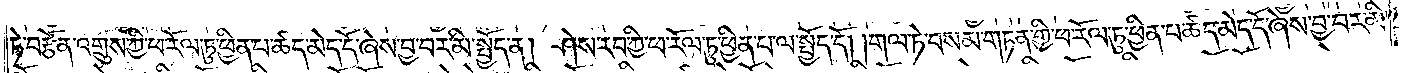ཏེ་བརྩོན་འགྲུས་ཀྱི་ཕ་རོལ་ཏུ་ཕྱིན་པ་ཚད་མེད་དོ་ཞེས་བྱ་བར་མི་སྤྱོད་ན། ཤེས་རབ་ཀྱི་ཕ་རོལ་ཏུ་ཕྱིན་པ་ལ་སྤྱོད་དོ། །གལ་ཏེ་བསམ་གཏན་གྱི་ཕ་རོལ་ཏུ་ཕྱིན་པ་ཚད་མེད་དོ་ཞེས་བྱ་བར་མི་
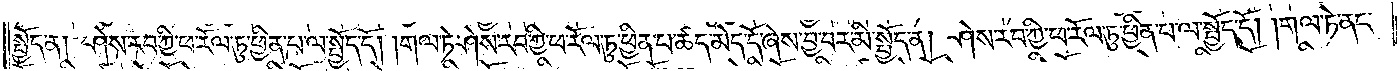སྤྱོད་ན། ཤེས་རབ་ཀྱི་ཕ་རོལ་ཏུ་ཕྱིན་པ་ལ་སྤྱོད་དོ། །གལ་ཏེ་ཤེས་རབ་ཀྱི་ཕ་རོལ་ཏུ་ཕྱིན་པ་ཚད་མེད་དོ་ཞེས་བྱ་བར་མི་སྤྱོད་ན། ཤེས་རབ་ཀྱི་ཕ་རོལ་ཏུ་ཕྱིན་པ་ལ་སྤྱོད་དོ། །གལ་ཏེ་ནང་
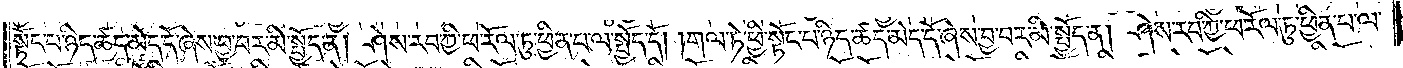སྟོང་པ་ཉིད་ཚད་མེད་དོ་ཞེས་བྱ་བར་མི་སྤྱོད་ན། ཤེས་རབ་ཀྱི་ཕ་རོལ་ཏུ་ཕྱིན་པ་ལ་སྤྱོད་དོ། །གལ་ཏེ་ཕྱི་སྟོང་པ་ཉིད་ཚད་མེད་དོ་ཞེས་བྱ་བར་མི་སྤྱོད་ན། ཤེས་རབ་ཀྱི་ཕ་རོལ་ཏུ་ཕྱིན་པ་ལ་
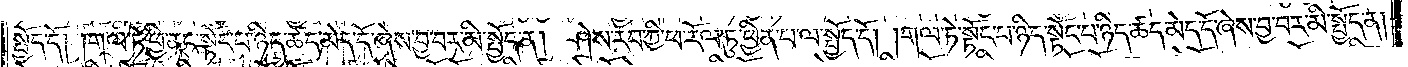སྤྱོད་དོ། །གལ་ཏེ་ཕྱི་ནང་སྟོང་པ་ཉིད་ཚད་མེད་དོ་ཞེས་བྱ་བར་མི་སྤྱོད་ན། ཤེས་རབ་ཀྱི་ཕ་རོལ་ཏུ་ཕྱིན་པ་ལ་སྤྱོད་དོ། །གལ་ཏེ་སྟོང་པ་ཉིད་སྟོང་པ་ཉིད་ཚད་མེད་དོ་ཞེས་བྱ་བར་མི་སྤྱོད་ན།
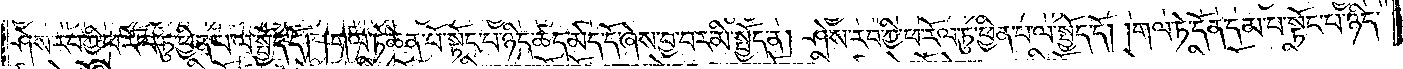ཤེས་རབ་ཀྱི་ཕ་རོལ་ཏུ་ཕྱིན་པ་ལ་སྤྱོད་དོ། །གལ་ཏེ་ཆེན་པོ་སྟོང་པ་ཉིད་ཚད་མེད་དོ་ཞེས་བྱ་བར་མི་སྤྱོད་ན། ཤེས་རབ་ཀྱི་ཕ་རོལ་ཏུ་ཕྱིན་པ་ལ་སྤྱོད་དོ། །གལ་ཏེ་དོན་དམ་པ་སྟོང་པ་ཉིད་
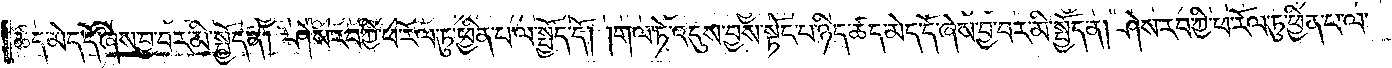ཚད་མེད་དོ་ཞེས་བྱ་བར་མི་སྤྱོད་ན། ཤེས་རབ་ཀྱི་ཕ་རོལ་ཏུ་ཕྱིན་པ་ལ་སྤྱོད་དོ། །གལ་ཏེ་འདུས་བྱས་སྟོང་པ་ཉིད་ཚད་མེད་དོ་ཞེས་བྱ་བར་མི་སྤྱོད་ན། ཤེས་རབ་ཀྱི་ཕ་རོལ་ཏུ་ཕྱིན་པ་ལ་
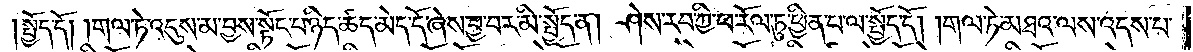སྤྱོད་དོ། །གལ་ཏེ་འདུས་མ་བྱས་སྟོང་པ་ཉིད་ཚད་མེད་དོ་ཞེས་བྱ་བར་མི་སྤྱོད་ན། ཤེས་རབ་ཀྱི་ཕ་རོལ་ཏུ་ཕྱིན་པ་ལ་སྤྱོད་དོ། །གལ་ཏེ་མཐའ་ལས་འདས་པ་
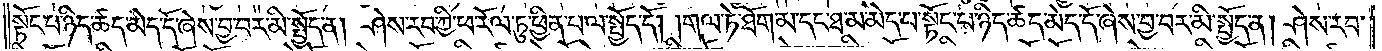སྟོང་པ་ཉིད་ཚད་མེད་དོ་ཞེས་བྱ་བར་མི་སྤྱོད་ན། ཤེས་རབ་ཀྱི་ཕ་རོལ་ཏུ་ཕྱིན་པ་ལ་སྤྱོད་དོ། །གལ་ཏེ་ཐོག་མ་དང་ཐ་མ་མེད་པ་སྟོང་པ་ཉིད་ཚད་མེད་དོ་ཞེས་བྱ་བར་མི་སྤྱོད་ན། ཤེས་རབ་
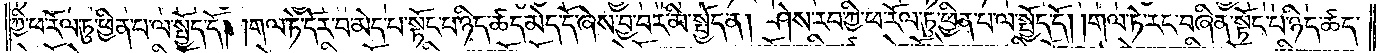ཀྱི་ཕ་རོལ་ཏུ་ཕྱིན་པ་ལ་སྤྱོད་དོ། །གལ་ཏེ་དོར་བ་མེད་པ་སྟོང་པ་ཉིད་ཚད་མེད་དོ་ཞེས་བྱ་བར་མི་སྤྱོད་ན། ཤེས་རབ་ཀྱི་ཕ་རོལ་ཏུ་ཕྱིན་པ་ལ་སྤྱོད་དོ། །གལ་ཏེ་རང་བཞིན་སྟོང་པ་ཉིད་ཚད་
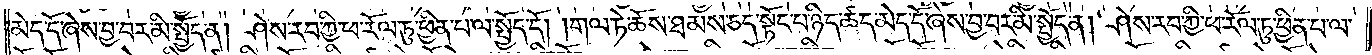མེད་དོ་ཞེས་བྱ་བར་མི་སྤྱོད་ན། ཤེས་རབ་ཀྱི་ཕ་རོལ་ཏུ་ཕྱིན་པ་ལ་སྤྱོད་དོ། །གལ་ཏེ་ཆོས་ཐམས་ཅད་སྟོང་པ་ཉིད་ཚད་མེད་དོ་ཞེས་བྱ་བར་མི་སྤྱོད་ན། ཤེས་རབ་ཀྱི་ཕ་རོལ་ཏུ་ཕྱིན་པ་ལ་
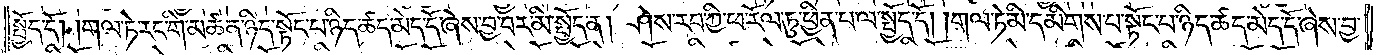སྤྱོད་དོ། །གལ་ཏེ་རང་གི་མཚན་ཉིད་སྟོང་པ་ཉིད་ཚད་མེད་དོ་ཞེས་བྱ་བར་མི་སྤྱོད་ན། ཤེས་རབ་ཀྱི་ཕ་རོལ་ཏུ་ཕྱིན་པ་ལ་སྤྱོད་དོ། །གལ་ཏེ་མི་དམིགས་པ་སྟོང་པ་ཉིད་ཚད་མེད་དོ་ཞེས་བྱ་
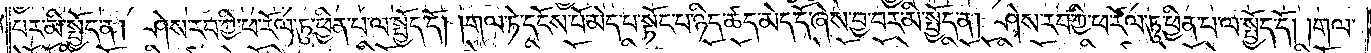བར་མི་སྤྱོད་ན། ཤེས་རབ་ཀྱི་ཕ་རོལ་ཏུ་ཕྱིན་པ་ལ་སྤྱོད་དོ། །གལ་ཏེ་དངོས་པོ་མེད་པ་སྟོང་པ་ཉིད་ཚད་མེད་དོ་ཞེས་བྱ་བར་མི་སྤྱོད་ན། ཤེས་རབ་ཀྱི་ཕ་རོལ་ཏུ་ཕྱིན་པ་ལ་སྤྱོད་དོ། །གལ་
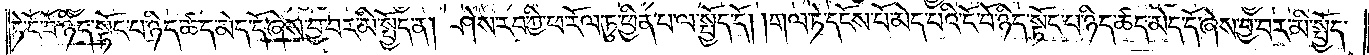ཏེ་ངོ་བོ་ཉིད་སྟོང་པ་ཉིད་ཚད་མེད་དོ་ཞེས་བྱ་བར་མི་སྤྱོད་ན། ཤེས་རབ་ཀྱི་ཕ་རོལ་ཏུ་ཕྱིན་པ་ལ་སྤྱོད་དོ། །གལ་ཏེ་དངོས་པོ་མེད་པའི་ངོ་བོ་ཉིད་སྟོང་པ་ཉིད་ཚད་མེད་དོ་ཞེས་བྱ་བར་མི་སྤྱོད་
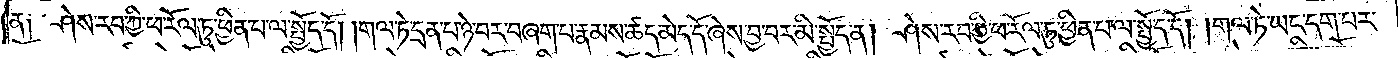ན༑ ཤེས་རབ་ཀྱི་ཕ་རོལ་ཏུ་ཕྱིན་པ་ལ་སྤྱོད་དོ། །གལ་ཏེ་དྲན་པ་ཉེ་བར་བཞག་པ་རྣམས་ཚད་མེད་དོ་ཞེས་བྱ་བར་མི་སྤྱོད་ན། ཤེས་རབ་ཀྱི་ཕ་རོལ་ཏུ་ཕྱིན་པ་ལ་སྤྱོད་དོ། །གལ་ཏེ་ཡང་དག་པར་
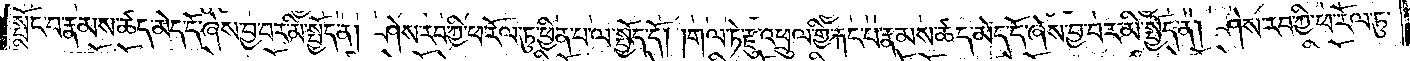སྤོང་བ་རྣམས་ཚད་མེད་དོ་ཞེས་བྱ་བར་མི་སྤྱོད་ན། ཤེས་རབ་ཀྱི་ཕ་རོལ་ཏུ་ཕྱིན་པ་ལ་སྤྱོད་དོ། །གལ་ཏེ་རྫུ་འཕྲུལ་གྱི་རྐང་པ་རྣམས་ཚད་མེད་དོ་ཞེས་བྱ་བར་མི་སྤྱོད་ན། ཤེས་རབ་ཀྱི་ཕ་རོལ་ཏུ་
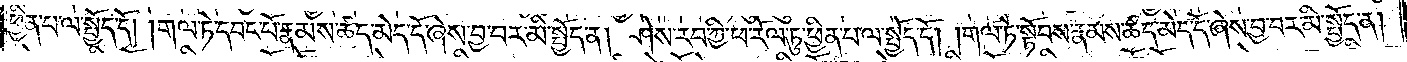ཕྱིན་པ་ལ་སྤྱོད་དོ། །གལ་ཏེ་དབང་པོ་རྣམས་ཚད་མེད་དོ་ཞེས་བྱ་བར་མི་སྤྱོད་ན། ཤེས་རབ་ཀྱི་ཕ་རོལ་ཏུ་ཕྱིན་པ་ལ་སྤྱོད་དོ། །གལ་ཏེ་སྟོབས་རྣམས་ཚད་མེད་དོ་ཞེས་བྱ་བར་མི་སྤྱོད་ན།
